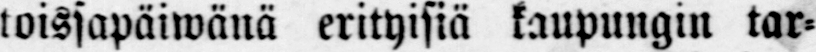toissapäiwänä erityisiä kaupungin tar-
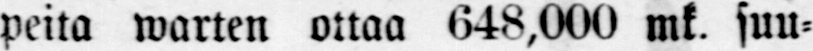peita warten ottaa 648,000 mk. suu-
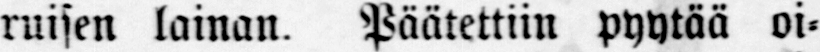ruisen lainan. Päätettiin pyytää oi-
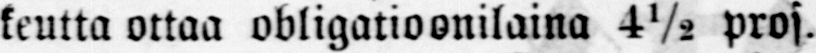keutta ottaa obligatioonilaina 4½ pros.
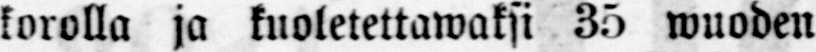korolla ja kuoletettawaksi 35 wuoden
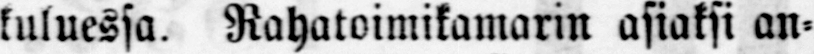kuluessa. Rahatoimikamarin asiaksi an-
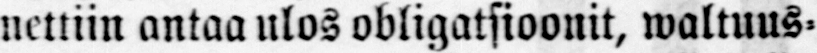nettiin antaa ulos obligatsioonit, waltuus-
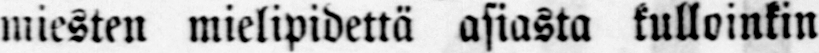miesten mielipidettä asiasta kulloinkin
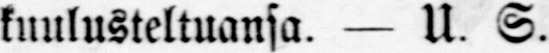kuulusteltuansa. — U. S.
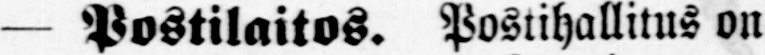— Postilaitos. Postihallitus on
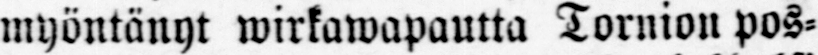myöntänyt wirkawapautta Tornion pos-
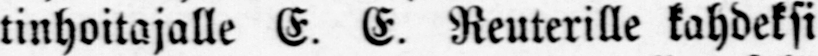tinhoitajalle E. E. Reuterille kahdeksi
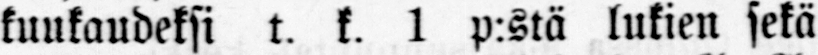kuukaudeksi t. k. 1 p.stä lukien sekä
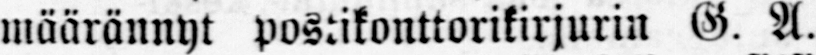määrännyt postikonttorikirjurin G. A.
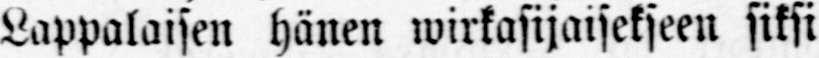Lappalaisen hänen wirkasijaisekseen siksi
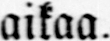aikaa.
